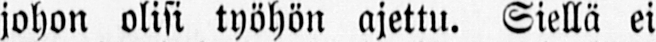johon olisi työhön ajettu. Siellä ei
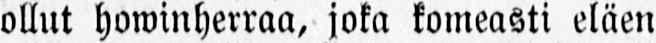ollut howinherraa, joka komeasti eläen
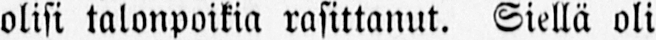olisi talonpoikia rasittanut. Siellä oli
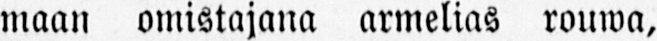maan omistajana armelias rouwa,
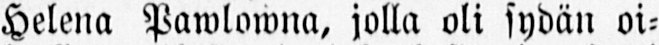Helena Pawlowna, jolla oli sydän oi-
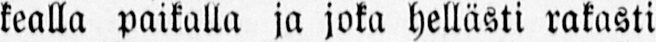kealla paikalla ja joka hellästi rakasti
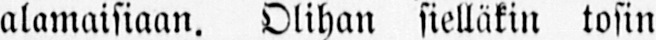alamaisiaan. Olihan sielläkin tosin
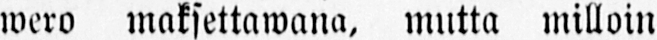wero maksettawana, mutta milloin
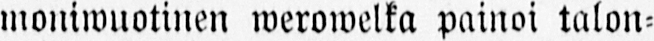moniwuotinen werowelka painoi talon-
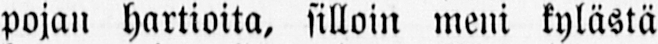pojan hartioita, silloin meni kylästä
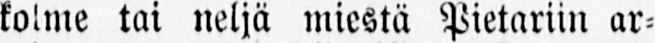kolme tai neljä miestä Pietariin ar-
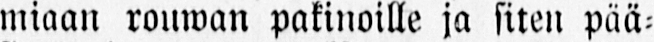miaan rouwan pakinoille ja siten pää-
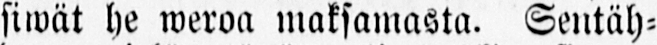siwät he weroa maksamasta. Sentäh-
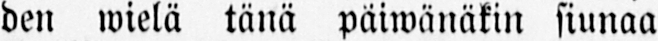den wielä tänä päiwänäkin siunaa
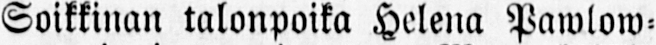Soikkinan talonpoika Helena Pawlow-
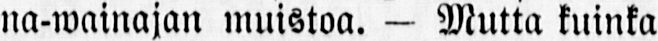na-wainajan muistoa. — Mutta kuinka
